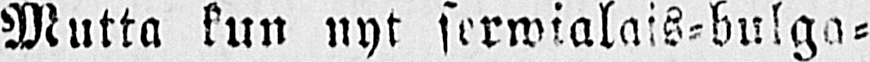Mutta kun nyt serwialais-bulga-
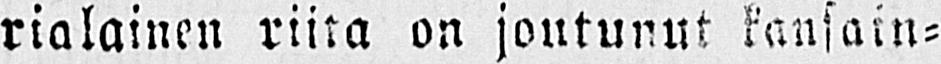rialainen riita on joutunut kansain-
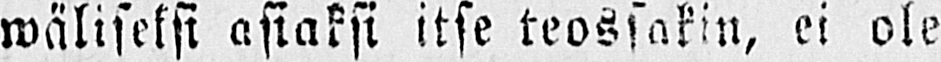wäliseksi asiaksi itse teossakin, ei ole
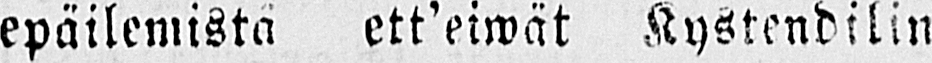epäilemistä ett'eiwät Kystendilin
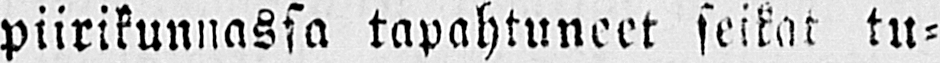piirikunnassa tapahtuneet seikat tu-
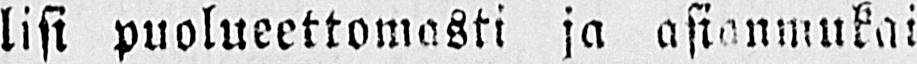lisi puolueettomasti ja asianmukai-
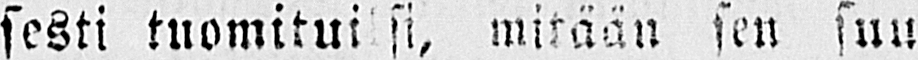sesti tuomituiksi, mitään, sen suu-
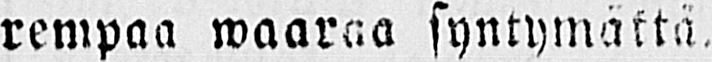rempaa waaraa syntymättä.
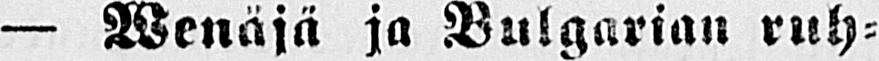— Wenäjä ja Bulgarian ruh-
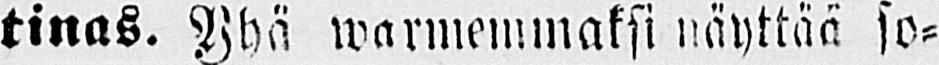tinas. Yhä warmennnaksi näyttää so-
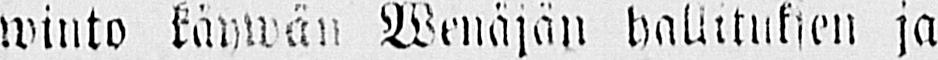winto käywän Wenäjän hallituksen ja
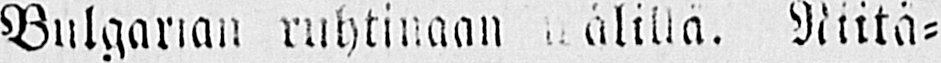Bulgarian ruhtinaan wälillä. Niitä-
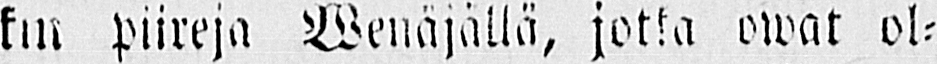kin piirejä Wenäjällä, jotka owat ol-
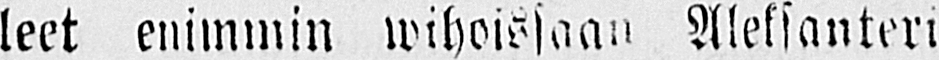leet enimmin wihoissaan Aleksanteri
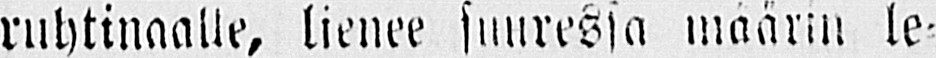ruhtinaalle, lienee suuressa määrin le-
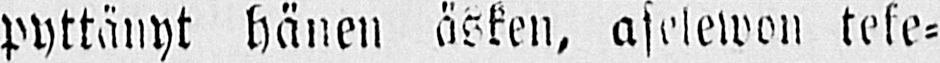pyttänyt hänen äsken, aselewon teke-
